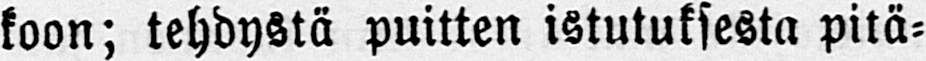koon; tehdystä puitten istutuksesta pitä-
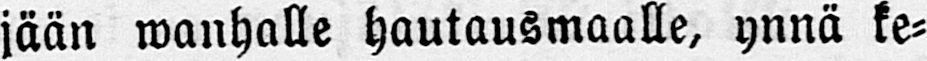jään wanhalle hautausmaalle, ynnä ke-
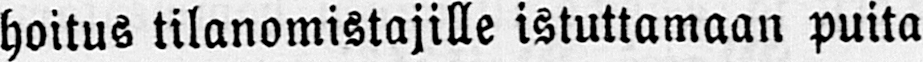hoitus tilanomistajille istuttamaan puita
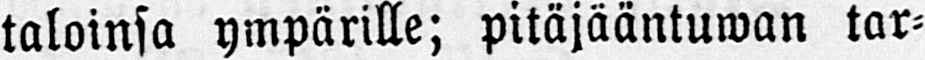taloinsa ympärille; pitäjääntuwan tar-
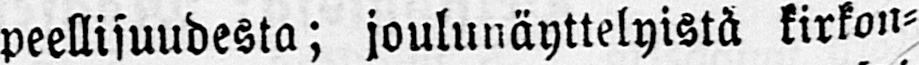peellisuudesta; joulunäyttelyistä kirkon-
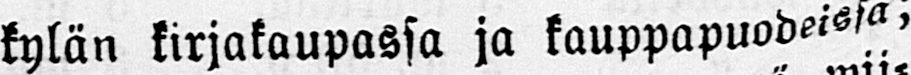kylän kirjakaupassa ja kauppapuodeissa;
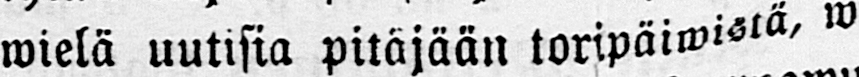wielä uutisia pitäjään toripäiwistä, wii-
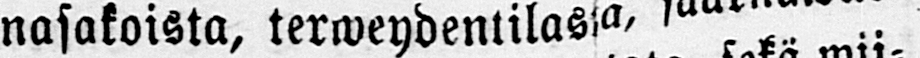nasakoista, terweydentilasta, saarnawuo-
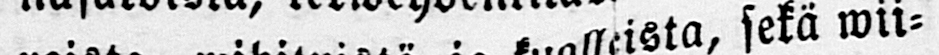roista, wihitynistä ja kuolleista, sekä wii-
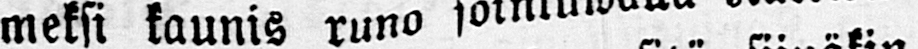meksi kaunis runo sointuwalla Kalewa-
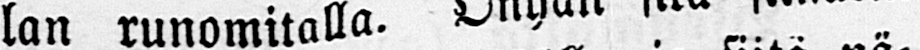lan runomitalla. Onhan sitä nä-
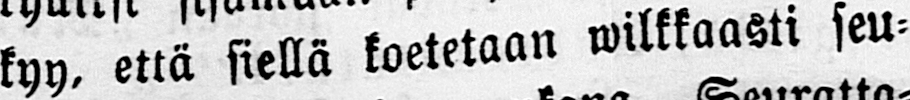kyy, että siellä koetetaan wilkkaasti seu-
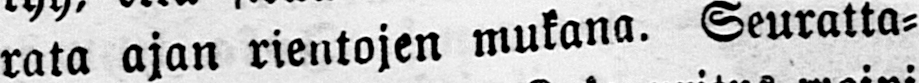rata ajan rientojen mukana. Seuratta-
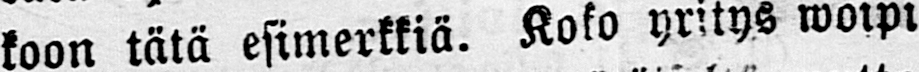koon tätä esimerkkiä. Koko yritys woipi
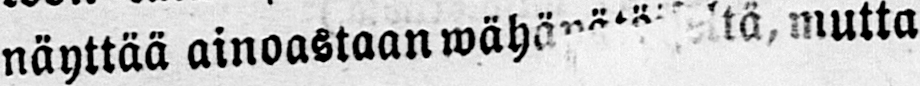näyttää ainoastaan wähäpätäiseltä, mutta
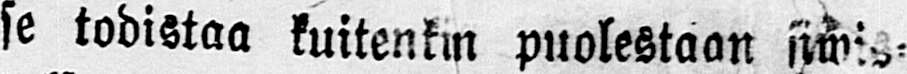se todistaa kuitenkin puolestaan siwis-
